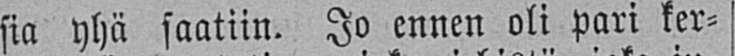siä yhä saatiin. Jo ennen oli pari ker-
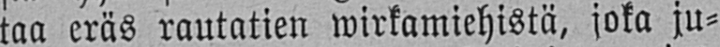taa eräs rautatien wirkamiehistä, joka ju-
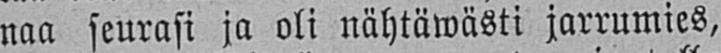naa seurasi ja oli nähtäwästi jarrumies,
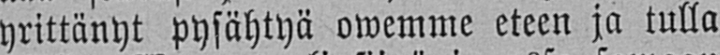yrittänyt pysähtyä owemme eteen ja tulla
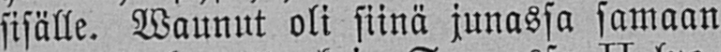sisälle. Waunut oli siinä junassa samaan
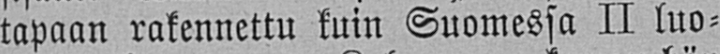tapaan rakennettu kuin Suomessa II luo-
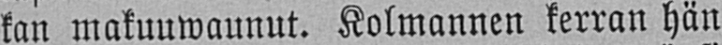kan makuuwaunut. Kolmannen kerran hän
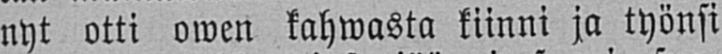nyt otti owen kahwasta kiinni ja työnsi
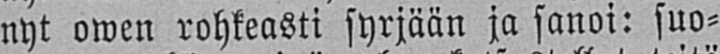nyt owen rohkeasti syrjään ja sanoi: suo-
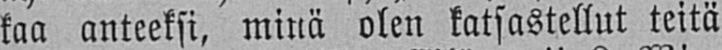kaa anteeksi, minä olen katsastellut teitä
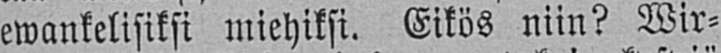ewankelisiksi miehiksi, Eikös niin? Wir-
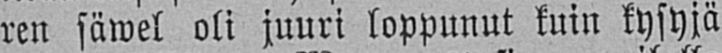ren säwel oli juuri loppunut kuin kysyjä
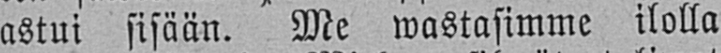astui sisään. Me wastasimme ilolla
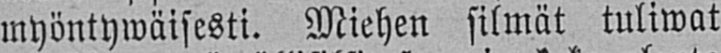myöntywäisesti. Miehen silmät tuliwat
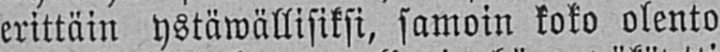erittäin ystäwällisiksi, samoin koko olento
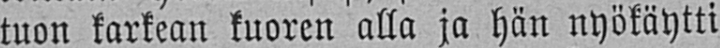tuon karkean kuoren alla ja hän nyökäytti
